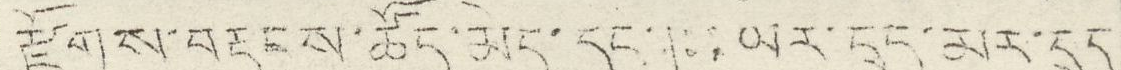རྫོགས་བརྡུངས་ཚོད་མེད་དང་། ཡར་དྲུད་མར་དྲུད
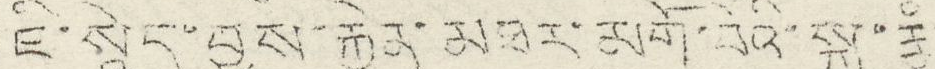ཇི་སྙེད་བྱས་རྐྱེན་མཐར་མགོ་བོའི་སྐྲ་རྣཾ
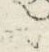ས
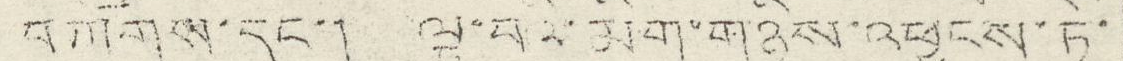བཀོགས་དང་། ལྟ་བའི་མིག་གཉིས་འཕྱུངས་ཏེ་
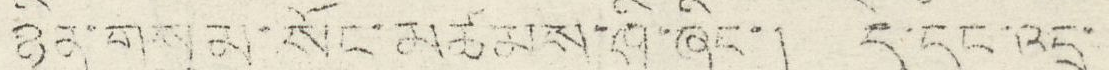ཉིན་གསུམ་སོང་མཚམས་ཤི་ཞིང་། དེ་དང་འདྲ་
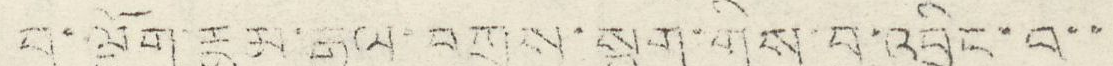བ་ལྡོག་རྣམ་རྒྱལ་བཀྲས་སྤུག་གིས་བུ་འབྲིང་བ་་
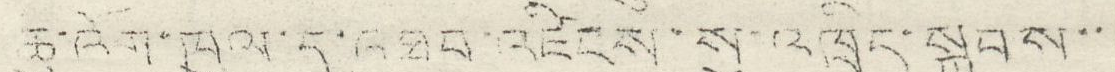ཆུ་འོག་ཁུལ་དུ་འཐབ་འཛིངས་སུ་འཁྲིང་སྐབས་་
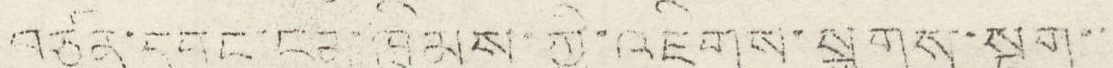བཙན་དབང་ངམ་ཁྲིམས་ཀྱི་འཇིགས་སྐྲགས་སྡུག་་
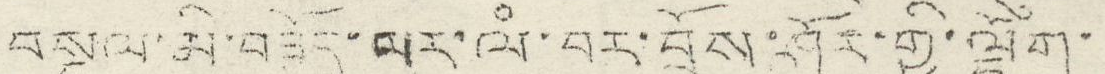བསྔལ་མི་བཟོད་ལར་ལཾ་བར་བྲོས་ཤོར་གྱི་ལྡོག་
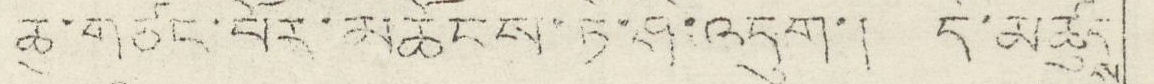ཆུ་གཙང་པོར་མཆོངས་ཏེ་ཤི་འདུག་། དེ་མཚུངས་
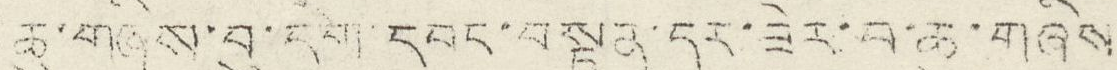ཆུ་གཞིས་བུ་དགེ་དབང་བསྟན་དར་ཟེར་བ་ཆུ་གཞིས
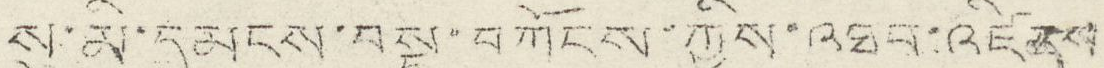སུ་མི་དམངས་བསྡུ་བཀོངས་ཀྱིས་འཐབ་འཛིངས་
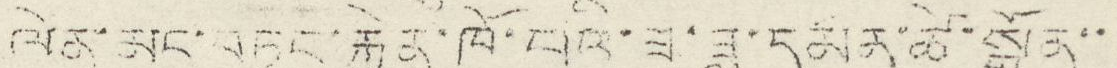ལེན་མང་བཏང་རྐྱེན་ཁོ་པའི་ཟ་ཟླ་དམར་ཚེ་སྒྲོན་་
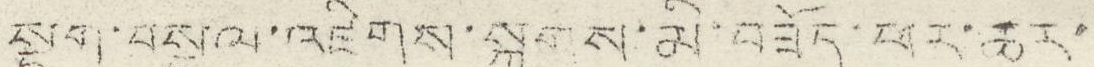སྡུག་བསྔལ་འཛིགས་སྐྲགས་མི་བཟོད་ཕར་ཆུར་
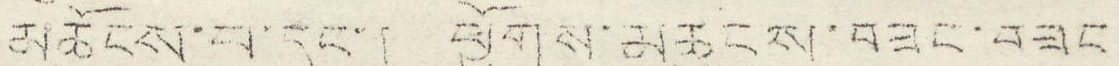མཆོངས་བ་དང་། ཕྱོགས་མཚུངས་བཟང་བཟང
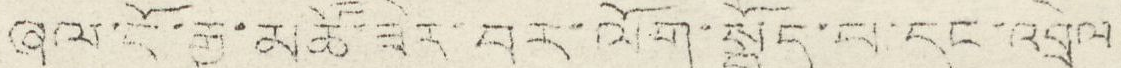ཞལ་ངོ་རྒྱ་མཚོ་ཟེར་བར་ལོག་སྤྱོད་པ་དང་འབྲེལ
